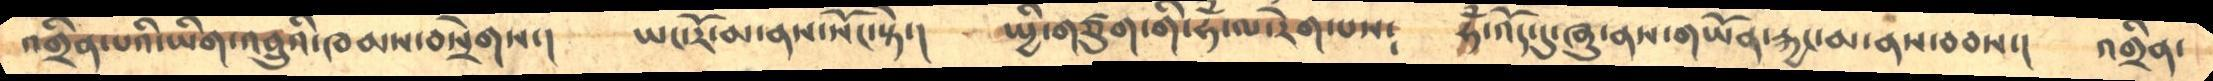འགྲིན་པའི་ཡིག་འབྲུའི་ཁམས་བསྲེགས་།      ཡང་རོ་མ་ནས་སོང་སྟེ་།     སྤྱི་གཙུག་གི་ཧྃ་ལ་རེག་པས༴     ཧྃ་འོད་དུ་ཞུ་ནས་གཡོན་རྐྱང་མ་ནས་བབས་།    འགྲིན་
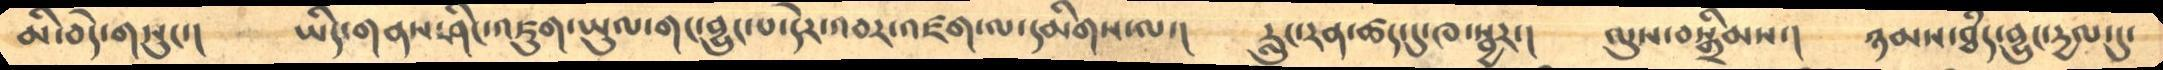མི་བདེ་གསུང་།      ཡིད་གནས་ཤིང་འཇུག་ཡུལ་གང་བྱུང་པ་དེར་འབར་འཛག་ལ་དམིགས་ལ་།      རླུང་རན་ཚད་དུ་ཁ་སྦྱར་།     ལུས་བསྒྲིམས་།     ཉམས་ཐཾད་བྱུངདྱལ་དུ་
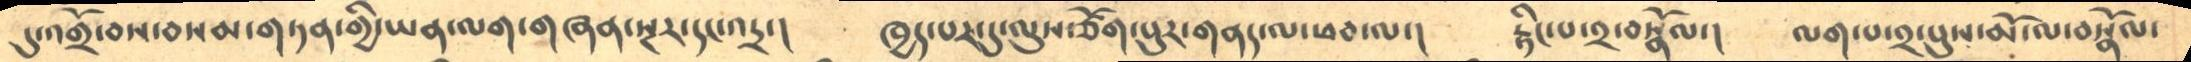དུ་འགྲོ་བས་བསམ་གཏན་གྱི་ཡན་ལག་གཞན་སྔར་དང་འདྲ་།     ཁྱད་པར་དུ་ལུས་ཙོག་པུར་གནད་ལ་ཕབ་ལ་།     རྟིང་པ་༢་བསྣོལ་།    ལག་པ་༢་པུས་མོ་ལ་བསྣོལ་
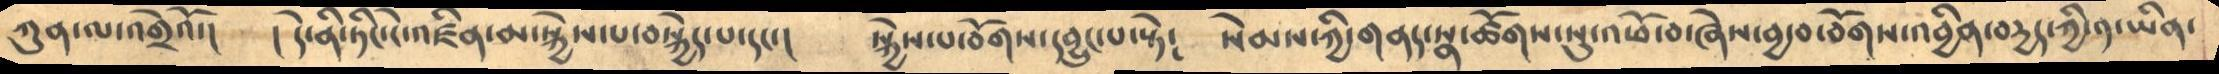ཀུན་ལ་འགྲེའོ་།       ། དེ་ནི་ཏིང་ངེ་འཛིན་མ་སྐྱེས་པ་བསྐྱེད་པ་དང་།     སྐྱེས་པ་བོགས་དབྱུང་པ་སྟེ༴      སེམས་ཀྱི་གནད་སྣ་ཚོགས་སུ་འཕོ་བ་ཞེས་བྱ་བ་བོགས་འབྱིན་བདྱད་ཀྱི་༡་ཡིན་
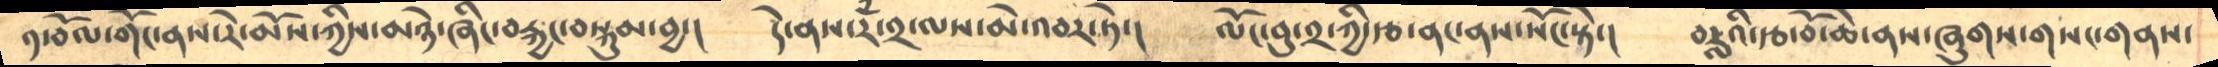༡་བོལ་གོང་ནས་རེ་མོས་ཀྱིས་མཉེ་ཞིང་བརྐྱང་བསྐུམ་བྱ་།     དེ་ནས་རཾ་༢་ལས་མེ་འབར་ཏེ་།     ལོང་བུ་༢་ཀྱི་རྩ་ནང་ནས་སོང་སྟེ་།      བརླའི་རྩ་བོ་ཆེ་ནས་ཞུགས་གསང་གནས་
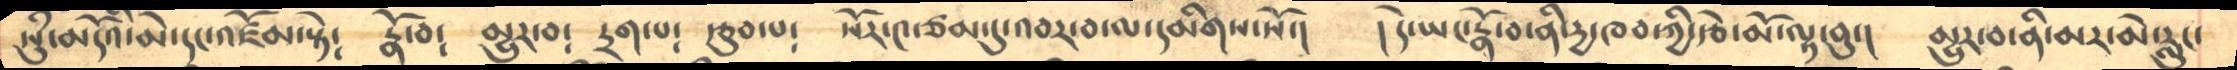སུཾ་མདོའི་མེ་དང་འཛོམ་སྟེ༴     རྣོ་བ༴    མྱུར་བ༴    དྲག་པ༴  རྩུབ་པ༴     སོར་༤་ཙམ་དུ་འབར་བ་མ་དམིགས་སོ་།     །དེ་ཡང་རྣོ་བ་ནི་དྱ་ཁབ་ཀྱི་རྩེ་མོ་ལྟ་བུ་།     མྱུར་བ་ནི་མར་མེ་རླུང་
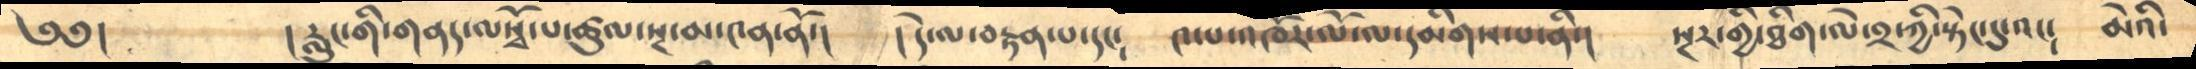༄༅།      །རླུང་གི་གནད་ལསྭོ་པ་ཚུལ་སྔ་མ་༤ན་ནོ་།      ། དེ་ལ་བརྟན་པ་དང༴     ༤་པ་འཁོར་ལོ་ལ་དམིགས་པ་ནི་།     སྔར་གྱི་ཐིག་ལེ་༢་ཀྱི་སྟེང་དུ་འང༴   མེའི་
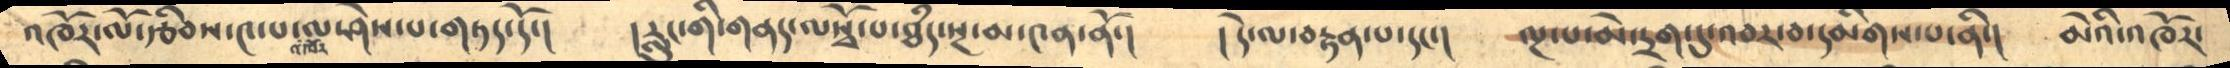འཁོར་ལོ་རྩིབས་༤་པ་ལ་ཤེས་པ་གཏད་དོ་།         །རླུང་གི་གནད་ལསྭོ་པ་ཐཾད་སྔ་མ་༤ན་ནོ་།      །དེ་ལ་བརྟན་པ་དང་།     ལྔ་པ་མེ་དྲག་དུ་འབར་བ་དམིགས་པ་ནི་།    མེའི་འཁོར་
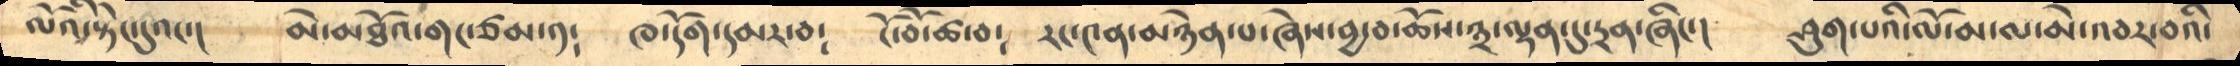ལོའི་སྟེང་དུའང་།     མེ་མཐོའ་གང་ཙམ་༡༴    ཁ་དོག་དམར་བ༴    ངོ་བོ་ཚ་བ༴    རང་༤ན་མཉེན་པ་ཞེས་བྱ་བ་ཆོས་༣་ལྷན་དུ་དྲན་ཞིང་།      ཤུག་པའི་ལོ་མ་ལ་མེ་འབར་བའི་
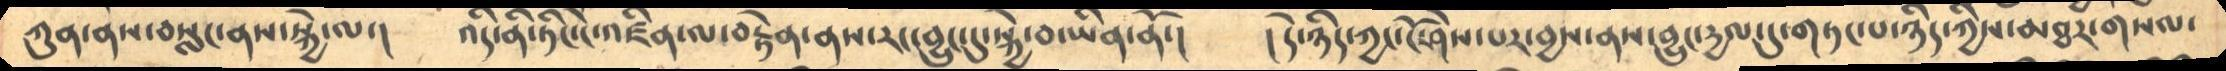ཀུན་ནས་བསླང་ནས་སྐྱེ་ལ་།      འདི་ནི་ཏིང་ངེ་འཛིན་ལ་བརྟེན་ནས་རང་བྱུང་དུ་སྐྱེ་བ་ཡིན་ནོ་།     །དེ་ཉིད་ཀྱང་ངོ་ཤེས་པར་བྱས་ནས་བྱུང་དྱལ་དུ་གཏང་པ་ཉིད་ཀྱིས་མཐར་གསལ་
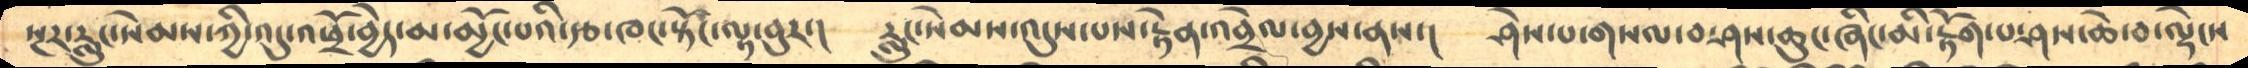སྔར་རླུང་སེམས་ཀྱི་འདུ་འཕྲོ་བྱེད་མ་མྱོང་པའི་རྩ་ཁང་སྟོང་ལྟ་བུར་།       རླུང་སེམས་འདུས་པས་རྟེན་འབྲེལ་བྱས་ནས་།      ཤེས་པ་གསལ་བ་ཤས་ཆུང་ཞིང་མི་རྟོག་པ་ཤས་ཆེ་བ་ལྡེངས
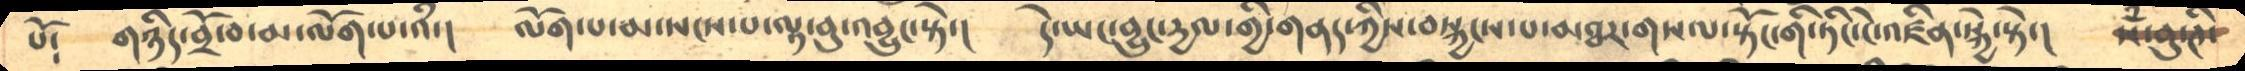པོ༴     གཉིད་བྲོ་བ་མ་ལོག་པ་འཾ་།      ལོག་པ་མ་སངས་པ་ལྟ་བུ་འབྱུང་སྟེ་།     དེ་ཡང་བྱུང་དྱལ་གྱི་གནད་ཀྱིས་བསྐྱངས་པ་མཐར་གསལ་སྟོང་གི་ཏིང་ངེ་འཛིན་སྐྱེ་སྟེ་།     སཾ་བུ་ཊི་
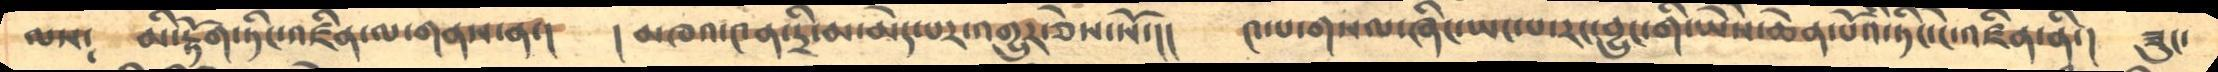ལས༴    མི་རྟོག་ཏིང་འཛིན་ལ་གནས་ན་།       །མཁའ་༤ན་དྲི་མ་མེད་པར་འགྱུར་ཅེས་སོ་།།      ༤་པ་གསལ་ཞིང་ཡང་པ་རང་བྱུང་གི་ཡཻས་ཆེན་པོའི་ཏིང་ངེ་འཛིན་ནི་།  ཟུང་
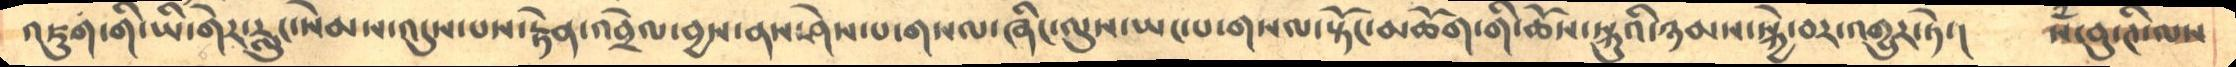འཇུག་གི་ཡི་གེར་རླུང་སེམས་འདུས་པས་རྟེན་འབྲེལ་བྱས་ནས་ཤེས་པ་གསལ་ཞིང་ལུས་ཡང་པ་གསལ་སྟོང་མཆོག་གི་ཆོས་སྐུའི་ཉམས་སྐྱེ་བར་འགྱུར་ཏེ་།     སཾ་བུ་ཊི་ལས
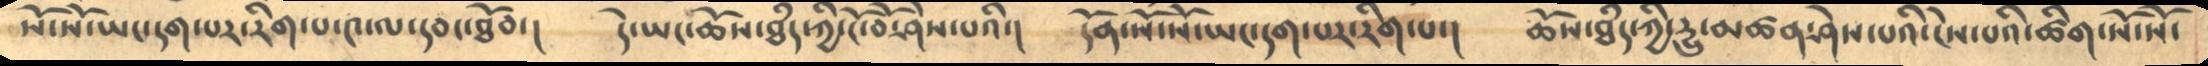སོ་སོ་ཡང་དག་པར་རིག་པ་༤་ལ་དབང་ཐོབ་།     དེ་ཡང་ཆོས་ཐཾད་ཀྱི་ངོ་བོ་ཤེས་པའི་།      དོན་སོ་སོ་ཡང་དག་པར་རིག་པ་།      ཆོས་ཐཾད་ཀྱི་དྱུ་མཚན་ཤེས་པའི་ངེས་པའི་ཚིག་སོ་སོ་
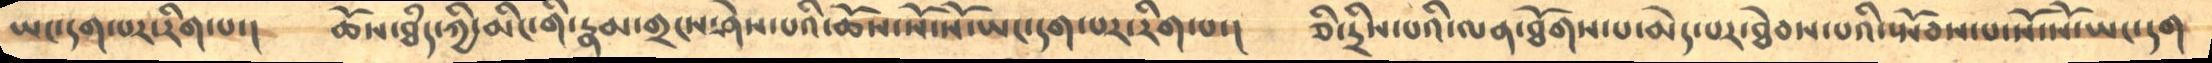ཡང་དག་པར་རིག་པ་།      ཆོས་ཐཾད་ཀྱི་མིང་གི་རྣམ་གྲངས་ཤེས་པའི་ཆོས་སོ་སོར་ཡང་དག་པར་རིག་པ་།      ཅི་དྲིས་པའི་ལན་ཐོགས་པ་མེད་པར་ཐེབས་པའི་སྤོབས་པ་སོ་སོ་ཡང་དག
